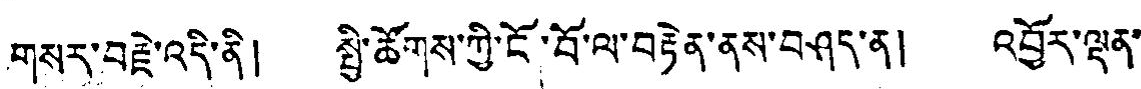གསར་བརྗེ་འདི་ནི། སྤྱི་ཚོགས་ཀྱི་ངོ་བོ་ལ་བརྟེན་ནས་བཤད་ན། འབྱོར་ལྡན་
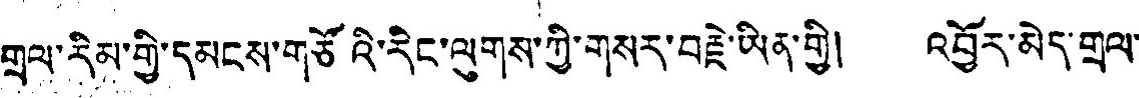གྲལ་རིམ་གྱི་དམངས་གཙོའི་རིང་ལུགས་ཀྱི་གསར་བརྗེ་ཡིན་གྱི། འབྱོར་མེད་གྲལ་
